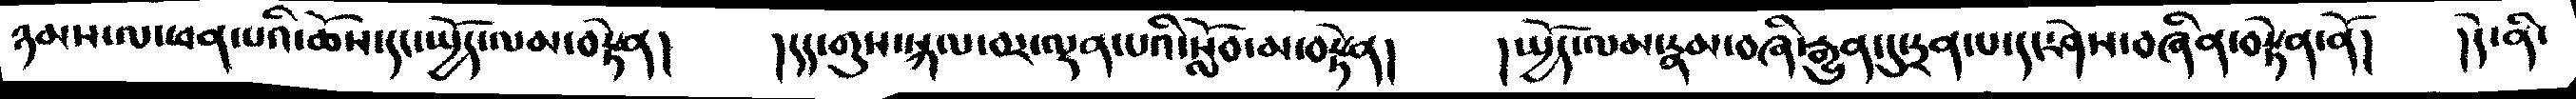ཉམས་ལ་ཕན་པའི་ཆོས་དང་ཡྱོད་ལམ་བརྟེན།    །དད་གུས་སྐལ་བར་ལྡན་པའི་སློབ་མ་བརྟེན།     །ཡྱོད་ལམ་རྣམ་བཞི་རྒྱུན་དུ་ཏྲན་པ་དང་ཤེས་བཞིན་བརྟེན་ནོ།    །དེ་ནི་
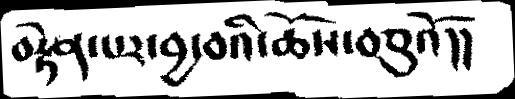བརྟེན་པར་བྱ་བའི་ཆོས་བཅུའོ།།
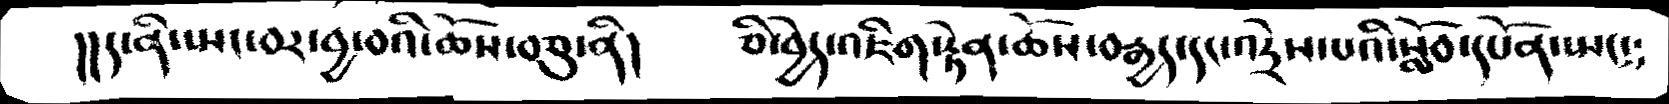།།ད་ནི་སྤང་བར་བྱ་བའི་ཆོས་བཅུ་ནི།   ཅི་བྱེད་འཇིག་རྟེན་ཆོས་བརྒྱད་དང་འདྲེས་པའི་སློབ་དཔོན་ཡང་༴
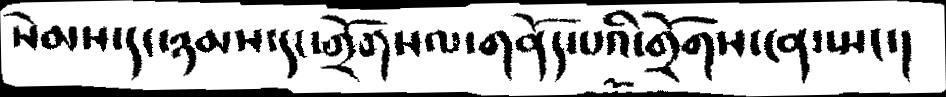སེམས་དང་ཉམས་དང་གྲོགསལ་གནོད་པའི་གྲོགས་ངན་སྤང་།
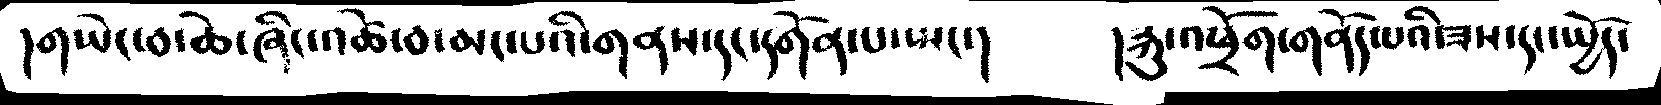།གཡེང་བ་ཆེ་ཞིང་འཚེ་བ་མང་པའི་གནས་དང་དགོན་པ་སྤང་།     །རྐུ་འཕྲོག་གནོད་པའི་ཟས་དང་ཡྱོད་
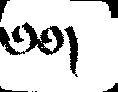༄༅།
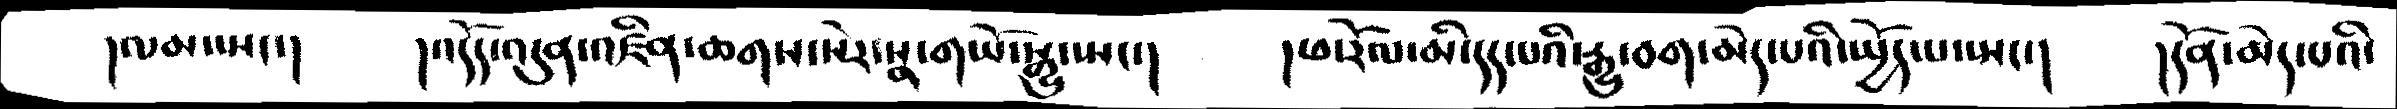།ལམ་སྤང་།   །འདོད་འདུན་འཛིན་ཆགས་སེར་སྣ་གཡོ་སྒྱུ་སྤང་།  །ཕ་རོལ་མི་དད་པའི་རྒྱུ་བག་མེད་པའི་སྤྱོད་པ་སྤང་།  །དོན་མེད་པའི་
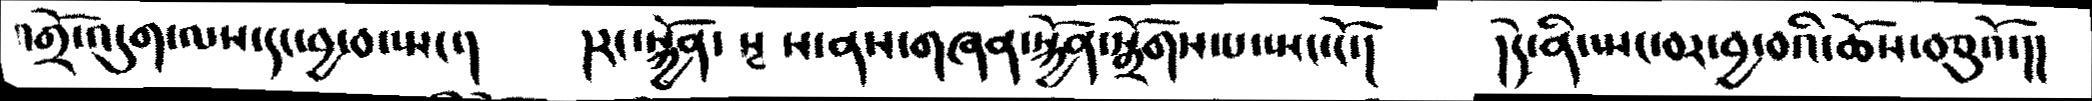འགྲོ་འདུག་ལས་དང་བྱ་བ་སྤང་།  །རང་སྐྱོན་སྦས་ནས་གཞན་སྐྱོན་སྒྲོགས་པ་སྤང་ངོ་།  །དེ་ནི་སྤང་བར་བྱ་བའི་ཆོས་བཅུའོ་།།
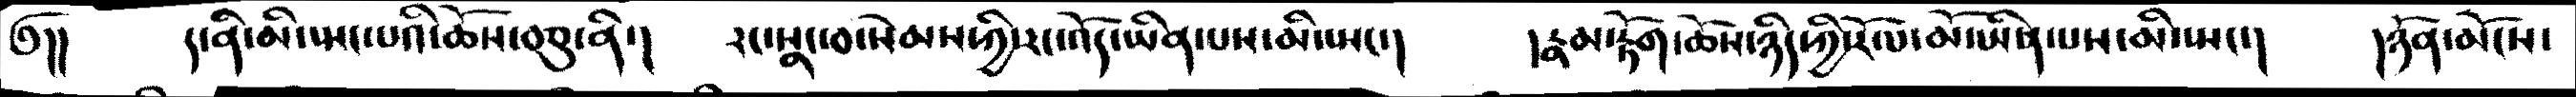༅།།   ད་ནི་མི་སྤང་པའི་ཆོས་བཅུ་ནི་།  རང་སྣང་བ་སེམས་ཀྱི་རང་འོད་ཡིན་པས་མི་སྤང་།  །རྣམ་རྟོག་ཆོས་ཉིད་ཀྱི་རོལ་མོ་ཡིན་པས་མི་སྤང་།  །ཉོན་མོངས་
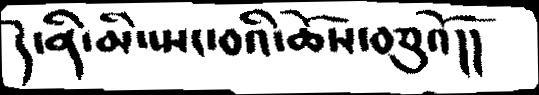དེ་ནི་མི་སྤང་བའི་ཆོས་བཅུའོ།།
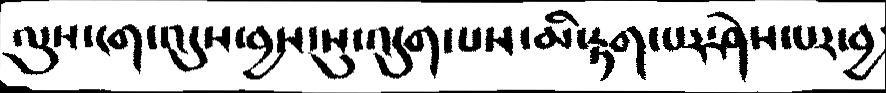ལུས་ངག་འདུས་བྱས་སུ་འདུག་པས་མི་རྟག་པར་ཤེས་པར་བྱ
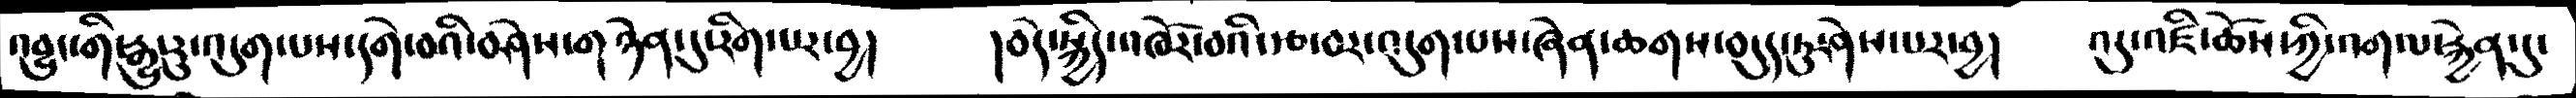འབྱུང་གི་རྒྱུ་རུ་འདུག་པས་དགེ་བའི་བཤེས་གཉེན་དུ་རིག་པར་བྱ།  །བདེ་སྐྱིད་འཁོར་བའི་རྩ་བར་འདུག་པས་ཞེན་ཆགས་བདུད་ཏུ་ཤེས་པར་བྱ།  འདུ་འཛི་ཆོས་ཀྱི་འགལ་རྐྱེན་དུ་
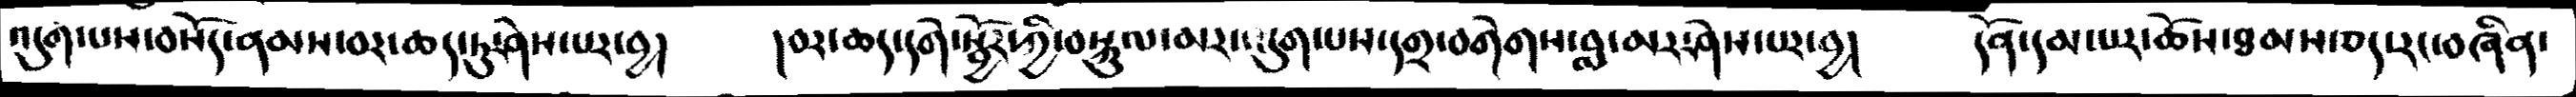འདུག་པས་བསོད་ནམས་བར་ཆད་དུ་ཤེས་པར་བྱ།  །བར་ཆད་དགེ་སྦྱོར་ཀྱི་བསྐུལ་མར་འདུག་པས་དགྲ་བགེགས་བླ་མར་ཤེས་པར་བྱ།  དོན་དམ་པར་ཆོས་ཐམས་ཅད་རང་བཞིན་
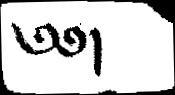༄༅།
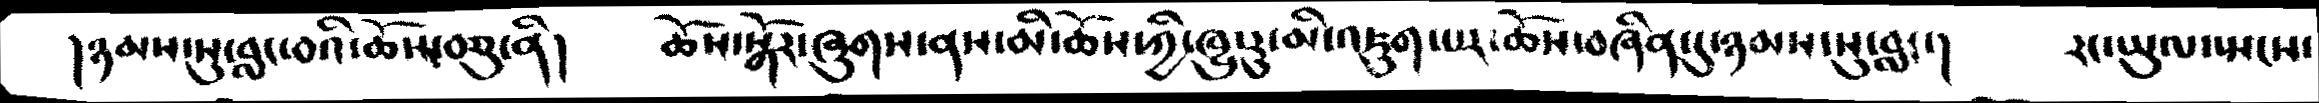།ཉམས་སུ་བླང་བའི་ཆོས་བཅུ་ནི།  ཆོས་སྒོར་ཞུགས་ནས་མི་ཆོས་ཀྱི་ཁྱུ་རུ་མི་འཇུག་པར་ཆོས་བཞིན་དུ་ཉམས་སུ་བླང་།  རང་ཡུལ་སྤངས་
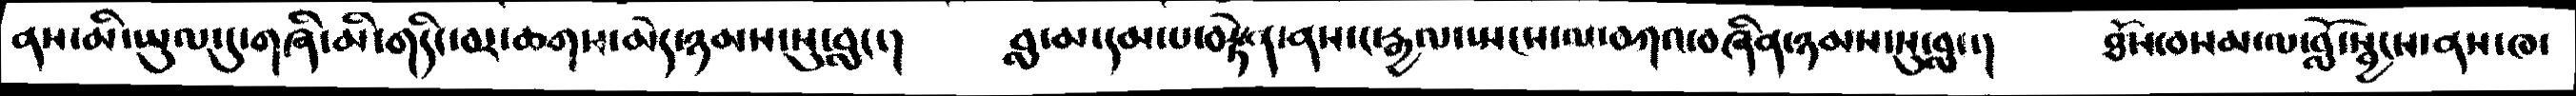ནས་མི་ཡུལ་དུ་གཞི་མི་གདིང་བར་ཆགྷས་མེད་ཉམས་སུ་བླང་།  བླ་མ་དམ་པ་བརྟེན་ནས་ང་རྒྱལ་སྤངས་ལ་བཀའ་བཞིན་ཉམས་སུ་བླང་།  ཐོས་བསམ་ལ་བློ་སྦྱངས་ནས་ཁ་
